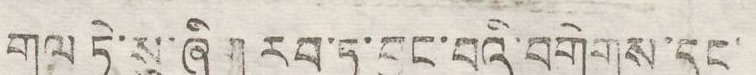གལ་ཏེ་སུ་ཞིག རབ་ཏུ་བྱུང་བའི་བགེགས་དང་
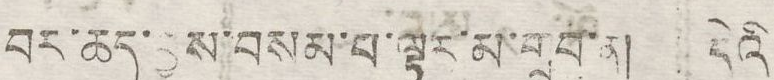བར་ཆད་བྱས་བསམ་པ་ལྟར་མ་གྲུབ་ན། དེའི
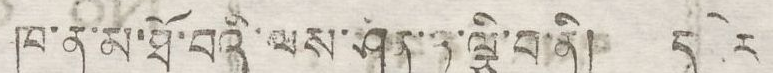ཁ་ན་མ་ཐོ་བའི་ལས་ཤིན་ཏུ་ལྕི་བ་ནི། དཔེར
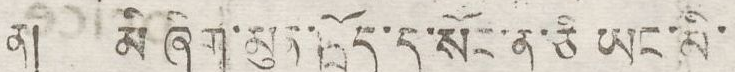ན། མི ཞིག་མུན་ཁྲོད་དུ་སོང་ན་ཅི ཡང་མི་
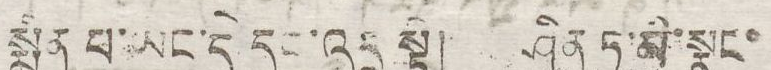སྨིན པ་ཡང་དེ དང་འདྲ་སྟེ། ཤིན་ཏུ་མི་སྣང་
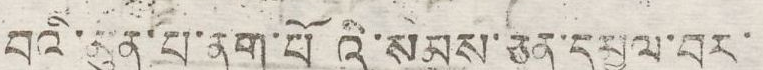བའི་མུན་པ་ནག་པོའི་སེམས་ཅན་དམྱལ་བར་
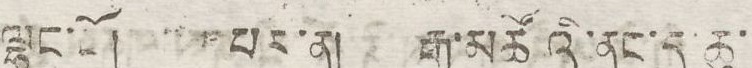ལྷུང་ངོ། པར་ན། རྒྱ་མཚོའི་ནང་དུ་ཆུ་
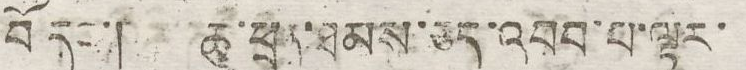བོ དང་། ཆུ་ཕྲན་ཐམས་ཅད་འབབ་པ་ལྟར་
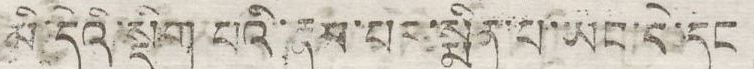མི་དེའི་སྡིག་པའི་རྣམ་པར་སྨིན་པ་ཡང་དེ་དང
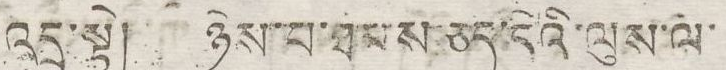འདྲ་སྟེ། ཉེས་བ་ཐམས་ཅད་དེའི་ལུས་ལ་
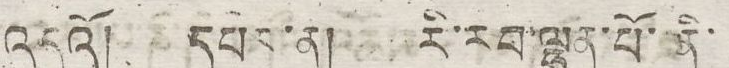འདུའོ། དཔེར་ན། རི་རབ་ལྷུན་པོ་ནི་
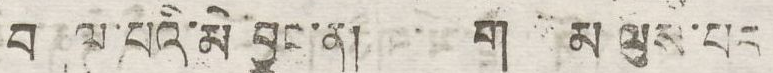བ ལ་པའི་མི བྱུང་ན། ག མ ལུས་པར
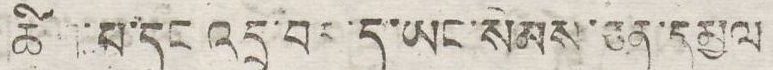ཚིག་པ་དང་འདྲ་བར་ད་ཡང་སེམས་ཅན་དམྱལ
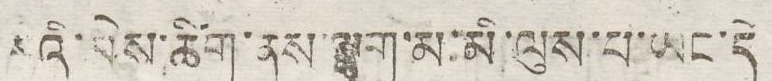པའི་མེས་ཚིག་ནས་ལྷག་མ་མི་ལུས་པ་ཡང་དེ
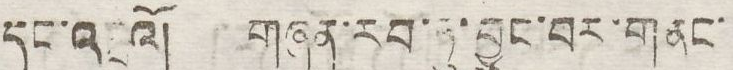དང་འདྲའོ། གཞན་རབ་ཏུ་བྱུང་བར་གནང་
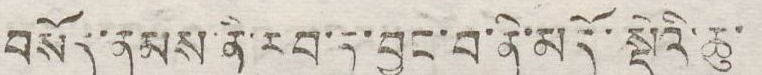བསོད་ནམས་ནི་རབ་ཏུ་བྱུང་བ་ནི་མདོ་སྡེའི་ཆུ་
